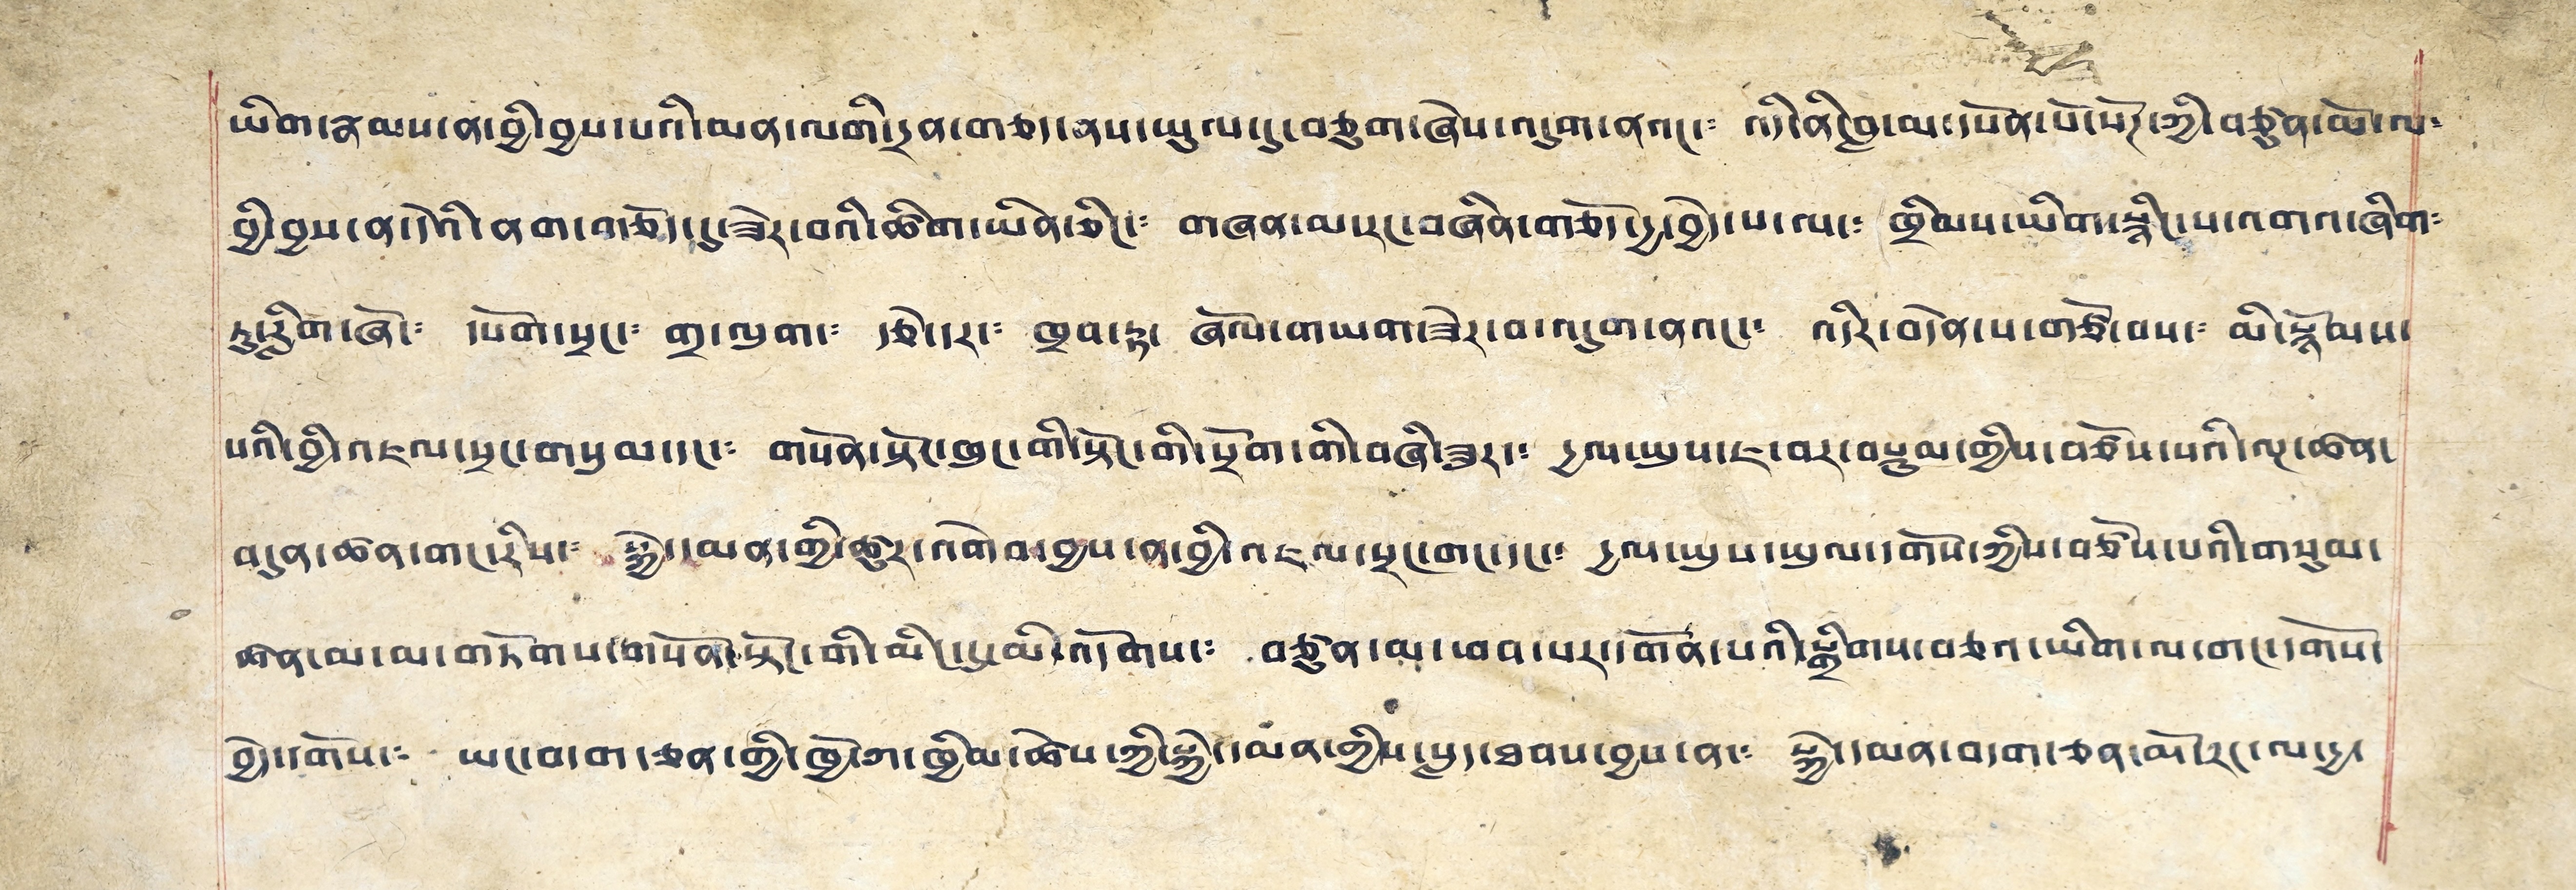ཡིག་རྣམས་ན་བྱི་བྱས་པའི་མན་ལགི་དྲན་གཅད་ནས་ཡུལ་དུ་བཅུག་ཞེས་འདུག་ནའང་༴ འདི་ནི་བླ་མ་དཔོན་པོ་སོཊ་ཀྱི་བཙུན་མོ་ལ༴
བྱི་བྱས་ན་དེའི་ནག་གཅོད་དུ་ཟེར་བའི་ཚིག་ཡིན་ཅིང་༴ གཞན་མ་རང་བཞིན་གཅོད་དྱ་བྱེད་པ་ལ་༴ ཁྲིམས་ཡིག་སྙིང་པ་འགའ་ཞིག༴
ཏུ་རླིག་ཞོ་༴ དཔོག་སྲང་༴ གྲ་ལུག་༴ རྩེ་དར་༴ ཁྲབ་རྟ་༴ ཞོལ་གཡག་ཟེར་བ་འདུག་ནའང་༴ འདིར་བདེན་པ་གཙོ་བས་༴ མི་རྙོམས་
པའི་བྱི་འཇལ་སྲང་གསུམ་དང་༴ གསོན་སྟོང་ཁུང་གི་སྟོང་གི་སྲོག་གི་བཞི་ཟུར་༴ དྱལ་ཡུས་ཇ་བར་བསྟུམ་གྱིས་བཙོས་པའི་ལྔ་ཚན་
བདུན་ཚན་གང་རིས་༴ སྐྱེ་དམན་གྱི་ཚུར་འགེམ་བྱས་ན་བྱི་འཇལ་སྲང་གང་དང་༴ དྱལ་ཡུས་ཡུལ་དགོས་ཀྱིས་བཙོས་པའི་གསུམ་
ཚན་མ་མ་གཏོགས་གསོན་སྟོང་གི་མིང་དུ་མི་འདོགས་༴ བཙུན་མ་ཕབ་པར་དགོན་པའི་སྒྲིགས་བཅའ་ཡིག་ལ་གང་དགོས་
བྱེད་དགོས་༴ ཡང་བདག་ཅན་གྱི་ཁྱོ་ཀ་ཁྱིམ་ཚེས་ཀྱི་སྐྱེ་དམན་གྱིས་སླད་ཐབས་བྱས་ན་༴ སྐྱེ་དམན་བདག་ཅན་མོ་རང་ལ་དྱ་
